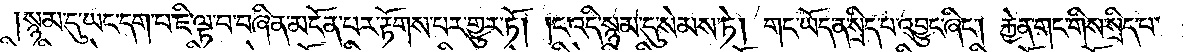སྙམ་དུ་ཡང་དག་པ་ཇི་ལྟ་བ་བཞིན་མངོན་པར་རྟོགས་པར་གྱུར་ཏོ། །ང་འདི་སྙམ་དུ་སེམས་ཏེ། གང་ཡོད་ན་སྲིད་པ་འབྱུང་ཞིང༌། རྐྱེན་གང་གིས་སྲིད་པ་
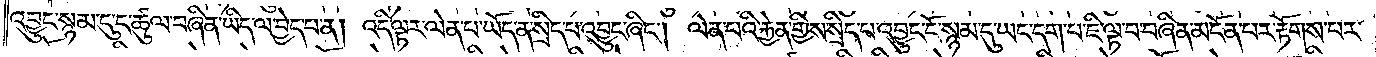འབྱུང་སྙམ་དུ་ང་ཚུལ་བཞིན་ཡིད་ལ་བྱེད་པ་ན། འདི་ལྟར་ལེན་པ་ཡོད་ན་སྲིད་པ་འབྱུང་ཞིང༌། ལེན་པའི་རྐྱེན་གྱིས་སྲིད་པ་འབྱུང་ངོ་སྙམ་དུ་ཡང་དག་པ་ཇི་ལྟ་བ་བཞིན་མངོན་པར་རྟོགས་པར་
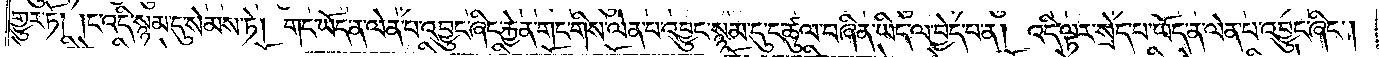གྱུར་ཏོ། །ང་འདི་སྙམ་དུ་སེམས་ཏེ། གང་ཡོད་ན་ལེན་པ་འབྱུང་ཞིང་རྐྱེན་གང་གིས་ལེན་པ་འབྱུང་སྙམ་དུ་ང་ཚུལ་བཞིན་ཡིད་ལ་བྱེད་པ་ན། འདི་ལྟར་སྲེད་པ་ཡོད་ན་ལེན་པ་འབྱུང་ཞིང༌།
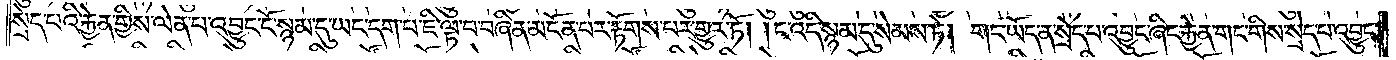སྲེད་པའི་རྐྱེན་གྱིས་ལེན་པ་འབྱུང་ངོ་སྙམ་དུ་ཡང་དག་པ་ཇི་ལྟ་བ་བཞིན་མངོན་པར་རྟོགས་པར་གྱུར་ཏོ། །ང་འདི་སྙམ་དུ་སེམས་ཏེ། གང་ཡོད་ན་སྲེད་པ་འབྱུང་ཞིང་རྐྱེན་གང་གིས་སྲེད་པ་འབྱུང་
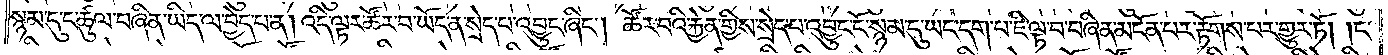སྙམ་དུ་ང་ཚུལ་བཞིན་ཡིད་ལ་བྱེད་པ་ན། འདི་ལྟར་ཚོར་བ་ཡོད་ན་སྲེད་པ་འབྱུང་ཞིང༌། ཚོར་བའི་རྐྱེན་གྱིས་སྲེད་པ་འབྱུང་ངོ་སྙམ་དུ་ཡང་དག་པ་ཇི་ལྟ་བ་བཞིན་མངོན་པར་རྟོགས་པར་གྱུར་ཏོ། །ང་
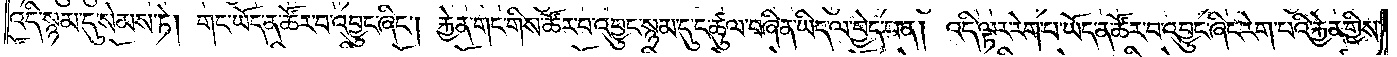འདི་སྙམ་དུ་སེམས་ཏེ། གང་ཡོད་ན་ཚོར་བ་འབྱུང་ཞིང༌། རྐྱེན་གང་གིས་ཚོར་བ་འབྱུང་སྙམ་དུ་ང་ཚུལ་བཞིན་ཡིད་ལ་བྱེད་པ་ན། འདི་ལྟར་རེག་པ་ཡོད་ན་ཚོར་བ་འབྱུང་ཞིང་རེག་པའི་རྐྱེན་གྱིས་
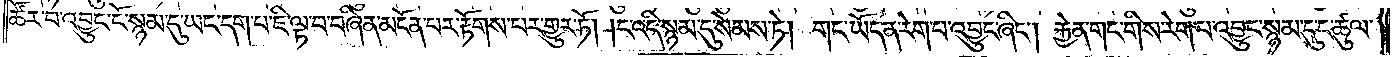ཚོར་བ་འབྱུང་ངོ་སྙམ་དུ་ཡང་དག་པ་ཇི་ལྟ་བ་བཞིན་མངོན་པར་རྟོགས་པར་གྱུར་ཏོ། །ང་འདི་སྙམ་དུ་སེམས་ཏེ། གང་ཡོད་ན་རེག་པ་འབྱུང་ཞིང༌། རྐྱེན་གང་གིས་རེག་པ་འབྱུང་སྙམ་དུ་ང་ཚུལ་
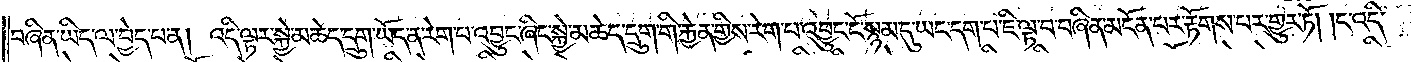བཞིན་ཡིད་ལ་བྱེད་པ་ན། འདི་ལྟར་སྐྱེ་མཆེད་དྲུག་ཡོད་ན་རེག་པ་འབྱུང་ཞིང་སྐྱེ་མཆེད་དྲུག་གི་རྐྱེན་གྱིས་རེག་པ་འབྱུང་ངོ་སྙམ་དུ་ཡང་དག་པ་ཇི་ལྟ་བ་བཞིན་མངོན་པར་རྟོགས་པར་གྱུར་ཏོ། །ང་འདི་
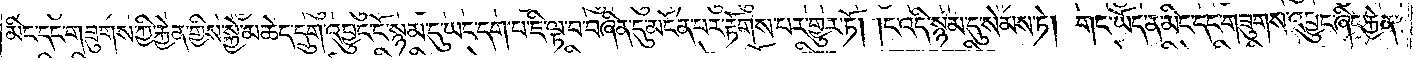མིང་དང་གཟུགས་ཀྱི་རྐྱེན་གྱིས་སྐྱེ་མཆེད་དྲུག་འབྱུང་ངོ་སྙམ་དུ་ཡང་དག་པ་ཇི་ལྟ་བ་བཞིན་དུ་མངོན་པར་རྟོགས་པར་གྱུར་ཏོ། །ང་འདི་སྙམ་དུ་སེམས་ཏེ། གང་ཡོད་ན་མིང་དང་གཟུགས་འབྱུང་ཞིང་རྐྱེན་
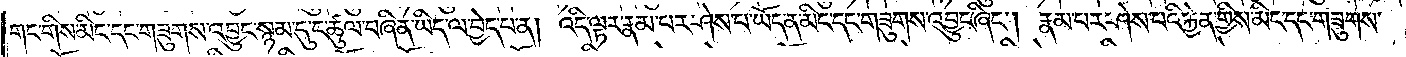གང་གིས་མིང་དང་གཟུགས་འབྱུང་སྙམ་དུ་ང་ཚུལ་བཞིན་ཡིད་ལ་བྱེད་པ་ན། འདི་ལྟར་རྣམ་པར་ཤེས་པ་ཡོད་ན་མིང་དང་གཟུགས་འབྱུང་ཞིང༌། རྣམ་པར་ཤེས་པའི་རྐྱེན་གྱིས་མིང་དང་གཟུགས་
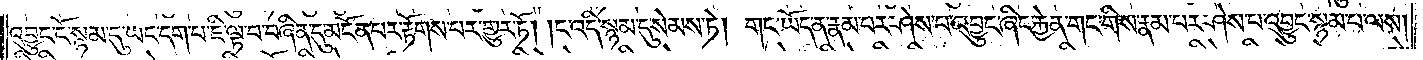འབྱུང་ངོ་སྙམ་དུ་ཡང་དག་པ་ཇི་ལྟ་བ་བཞིན་དུ་མངོན་པར་རྟོགས་པར་གྱུར་ཏོ། །ང་འདི་སྙམ་དུ་སེམས་ཏེ། གང་ཡོད་ན་རྣམ་པར་ཤེས་པ་འབྱུང་ཞིང་རྐྱེན་གང་གིས་རྣམ་པར་ཤེས་པ་འབྱུང་སྙམ་པ་ལས།
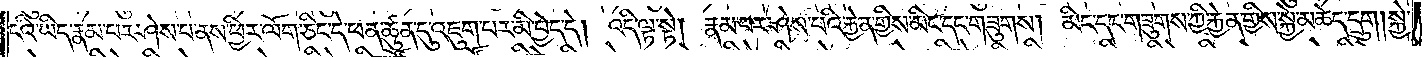ངའི་ཡིད་རྣམ་པར་ཤེས་པ་ནས་ཕྱིར་ལོག་ཅིང་དེ་ཕན་ཚུན་དུ་འཇུག་པར་མི་བྱེད་དེ། འདི་ལྟ་སྟེ། རྣམ་པར་ཤེས་པའི་རྐྱེན་གྱིས་མིང་དང་གཟུགས། མིང་དང་གཟུགས་ཀྱི་རྐྱེན་གྱིས་སྐྱེ་མཆེད་དྲུག །སྐྱེ་
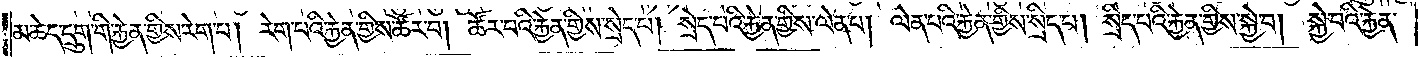མཆེད་དྲུག་གི་རྐྱེན་གྱིས་རེག་པ། རེག་པའི་རྐྱེན་གྱིས་ཚོར་བ། ཚོར་བའི་རྐྱེན་གྱིས་སྲེད་པ། སྲེད་པའི་རྐྱེན་གྱིས་ལེན་པ། ལེན་པའི་རྐྱེན་གྱིས་སྲིད་པ། སྲིད་པའི་རྐྱེན་གྱིས་སྐྱེ་བ། སྐྱེ་བའི་རྐྱེན་
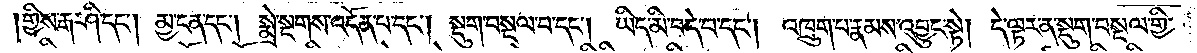།གྱིས་རྒ་ཤི་དང༌། མྱ་ངན་དང༌། སྨྲེ་སྔགས་འདོན་པ་དང༌། སྡུག་བསྔལ་བ་དང༌། ཡིད་མི་བདེ་བ་དང༌། འཁྲུག་པ་རྣམས་འབྱུང་སྟེ། དེ་ལྟར་ན་སྡུག་བསྔལ་གྱི་
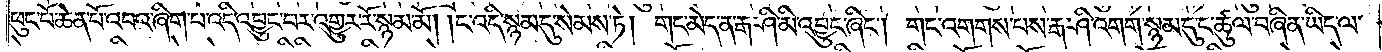ཕུང་པོ་ཆེན་པོ་འབའ་ཞིག་པ་འདི་འབྱུང་བར་འགྱུར་རོ་སྙམ་མོ། །ང་འདི་སྙམ་དུ་སེམས་ཏེ། གང་མེད་ན་རྒ་ཤི་མི་འབྱུང་ཞིང༌། གང་འགགས་པས་རྒ་ཤི་འགག་སྙམ་དུ་ང་ཚུལ་བཞིན་ཡིད་ལ་
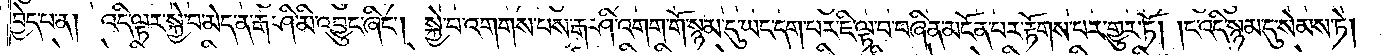བྱེད་པ་ན། འདི་ལྟར་སྐྱེ་བ་མེད་ན་རྒ་ཤི་མི་འབྱུང་ཞིང༌། སྐྱེ་བ་འགགས་པས་རྒ་ཤི་འགག་གོ་སྙམ་དུ་ཡང་དག་པར་ཇི་ལྟ་བ་བཞིན་མངོན་པར་རྟོགས་པར་གྱུར་ཏོ། །ང་འདི་སྙམ་དུ་སེམས་ཏེ།
